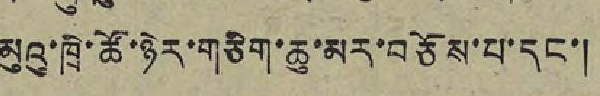མུའུ་ཁྲི་ཚོ་ཉེར་གཅིག་ཆུ་མར་བཅོས་པ་དང་།
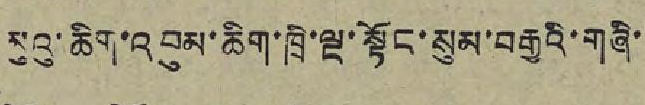མུའུ་ཆིག་འབུམ་ཆིག་ཁྲི་ལྔ་སྟོང་སུམ་བརྒྱའི་གཞི་
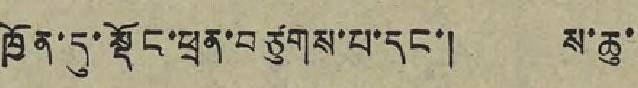ཁྱོན་དུ་སྡོང་ཕྲན་བཙུགས་པ་དང་། ས་ཆུ་
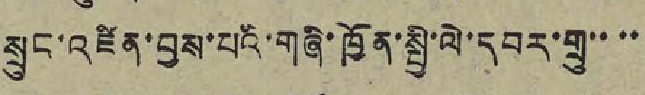སྲུང་འཛིན་བྱས་པའི་གཞི་ཁྱོན་སྤྱི་ལེ་དབར་གྲུ་་་་
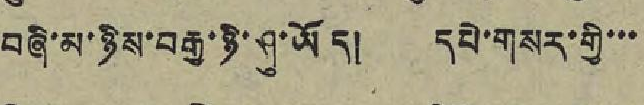བཞི་མ་ཉིས་བརྒྱ་ཉི་ཤུ་ཡོད། དཔེ་གསར་གྱི་་་
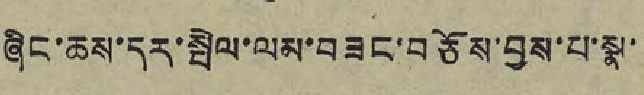ཞིང་ཆས་དར་སྤེལ་ལམ་བཟང་བཅོས་བྱས་པ་སྣ་
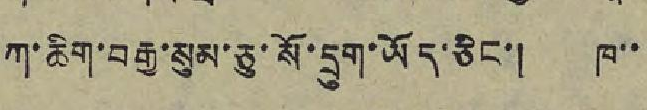ཀ་ཆིག་བརྒྱ་སུམ་ཅུ་སོ་དྲུག་ཡོད་ཅིང་། ཁ་་
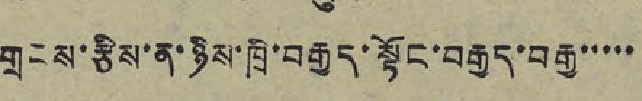གྲངས་རྩིས་ན་ཉིས་ཁྲི་བརྒྱད་སྟོང་བརྒྱད་བརྒྱ་་་་་
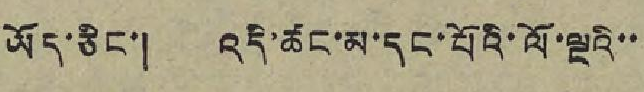ཡོད་ཅིང་། འདི་ཚང་མ་དང་པོའི་ལོ་ལྔའི་་
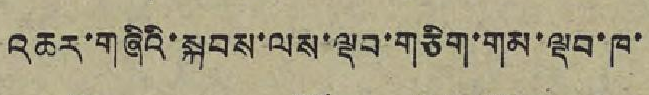འཆར་གཞིའི་སྐབས་ལས་ལྡབ་གཅིག་གམ་ལྡབ་ཁ་
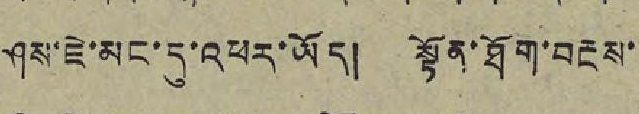ཤས་ཇེ་མང་དུ་འཕར་ཡོད། སྟོན་ཐོག་བརྔས་
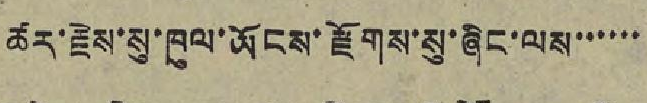ཚར་རྗེས་སུ་ཁུལ་ཡོངས་རྫོགས་སུ་ཞིང་ལས་་་་་་
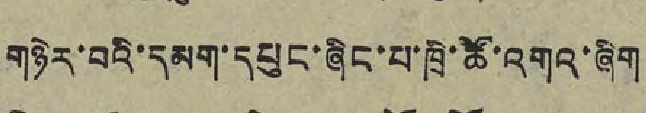གཉེར་བའི་དམག་དཔུང་ཞིང་པ་ཁྲི་ཚོ་འགའ་ཞིག
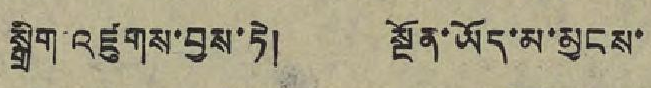སྒྲིག འཛུགས་བྱས་ཏེ། སྔོན་ཡོད་མ་མྱངས་
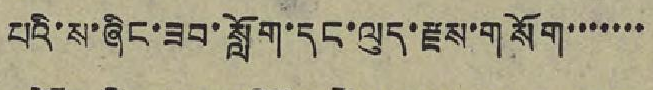པའི་ས་ཞིང་ཟབ་སློག་དང་ལུད་རྫས་གསོག་་་་་་་
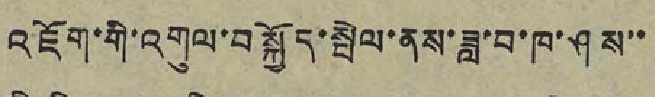འཇོག་གི་འགུལ་བསྐྱོད་སྤེལ་ནས་ཟླ་བ་ཁ་ཤས་་
